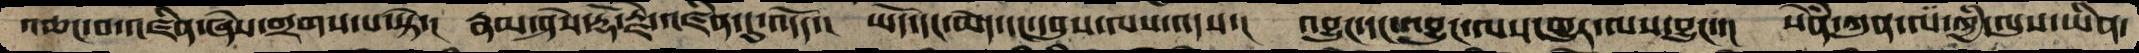འཆང་བ་འཛིན་ཞེས་གྲགས་པ་སྟེ་།  རྣམ་ཤེས་རྡོ་རྗེ་འཛིན་དུ་འདོད་།  ཡོད་དང་མེད་དང་དབུས་ལས་འདས་།  འབྱུང་དང་འབྱུང་ལས་གྱུར་ལས་བྱུང་་།  སེནཾ་ཀུན་ལ་ཀྱི་ལུས་ཡིན་
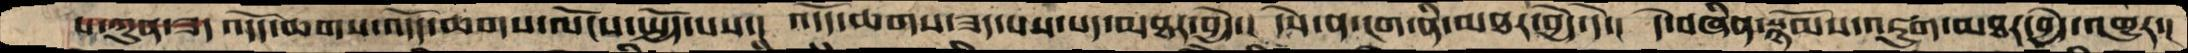པ་ཀུན་ཟད འདོད་ཆགས་འདོད་ཆགས་ལོངས་སྤྱོད་པས་།  འདོད་ཆགས་ཟད་པས་པད་མཐར་བྱེད་།  དེས་ན་ངག་ནི་མཐར་བྱེད་དེ་།  དེ་བཞིན་སྙོམས་འཇུག་མཐར་བྱེད་འགྱུར་།
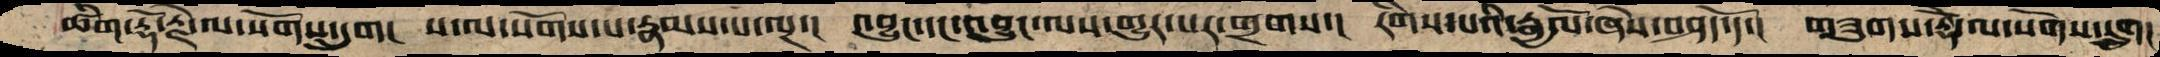ཚིག་རྡོ་རྗེ་ལ་སོགས་དྲུག།  ས་ལ་སོགས་པ་རྣམས་པ་ལྔ་།  འབྱུང་དང་འབྱུང་ལས་གྱུར་པར་གྲགས་།  རིགས་པའི་རྒྱལོ་ཞེས་བཤད་དོ་།  གཟུགས་རྡོེ་ལ་སོགས་དྲུག།
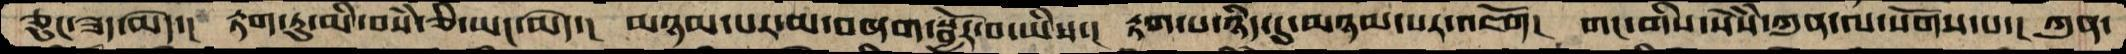ཅུང་ཟད་མེད་།  རྟག་ཏུ་མི་བསཾ་ཅི་ཡང་མེད་།  མཉམ་པར་མ་བཞག་སྦྱོར་བ་ཡིས་།  རྟག་པ་ཉིད་དུ་མཉམ་པར་འཇོག།  གང་གིས་སེསཾ་ཀུན་ལ་སོགས་པ་། ཀུན་
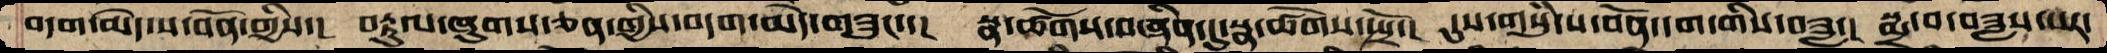བདག་མེད་ས་བོན་གྱིས་།  བརྟུལ་ཞུགས་ཅན་གྱིས་བདག་མེད་གཟུང་་།  སྣ་ཚེགས་བཞིན་དུ་སྣ་ཚོགས་སྤྲོ་།  དུས་གསུཾ་ས་བོན་དག་གིས་བཟླ་།  སྨྲ་བ་བཟླས་པར་
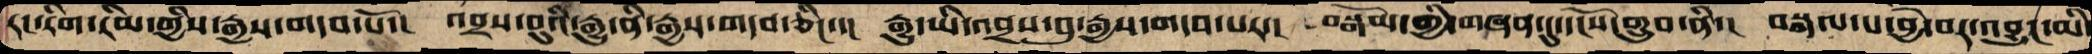རང་རིག་རིམ་གྱིས་རྒྱས་གདབ་པོ་།  འབྲས་བུའི་རྒྱུ་ནི་རྒྱས་གདབ་ཅིང་་།  རྒྱུ་ཡི་འབྲས་བུ་རྒྱས་གདབ་པར་།  བསྒོམ་གྱི་གཞན་དུ་དངོས་གྲུབ་ནི་།  བསྐལ་པ་བྱེ་བར་འབྱུང་མི་
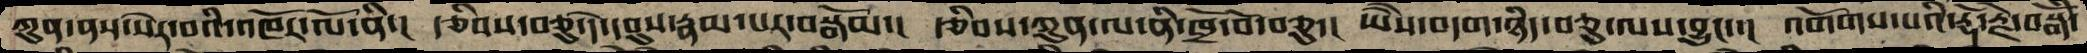ཀུན་ནས་སེར་བའི་འཁོར་ལོ་ནི་།  རྩིབས་བཅུ་དེ་དབུས་རྣམ་པར་བསྒོམ་།  རྩིབས་ཀུན་ལ་ནི་ཁྲོ་བོ་བཅུ་།  ཡཻས་བདག་ཉིད་བཅུ་ལས་བྱུང་་།  འགོགས་པའི་རྡོ་རྗེ་བསྒོཾ་
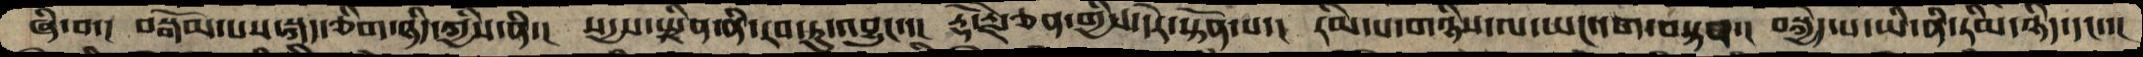ཞི་བ་།  བསྒོམ་པས་སྐད་ཅིག་ཉིད་ཀྱིས་ནི་།  སདྱས་སྤྲིན་ནི་རབ་ཏུ་འབྱུང་་།  རྡོ་རྗེ་ཅན་གྱིས་དེར་སྟོན་པ་།  རིམ་པ་གཉིས་ལ་ཡང་དག་བསྟན་།  བསྐྱེད་པ་ཡི་ནི་རིམ་ཉིད་དང་་།
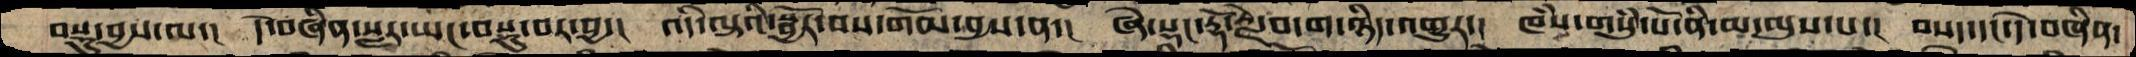བསྡུ་བྱས་ལ་།  དེ་བཞིན་སླར་ཡང་བསྡུ་བར་བྱ་།  འདི་ལྟའི་སྦྱོར་བས་གོམ་བྱས་ན་།  ཤེ་སྡང་རྡོ་རྗེ་བདག་ཉིད་འགྱུར་།  ཁཾས་གསུཾ་པོ་ནི་མ་ལུས་པ་།  བསད་དང་དེ་བཞིན་
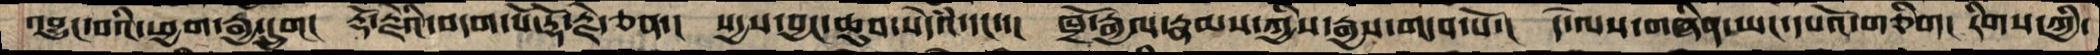འབྱུང་བའི་ཕྱག་རྒྱ་དྲུག།  རྡོ་རྗེའི་བདག་པོ་རྡོ་རྗེ་ཅན་།  སདྱས་བྱང་ཆུབ་སེདཾའ་དང་་།  ཁྲོ་རྒྱལ་རྣམས་ཀྱིས་རྒྱས་གདབ་པོ་།  དེ་ལས་གཞིན་ཡང་དཔའོ་གཅིག།  རིགས་ཀྱི་
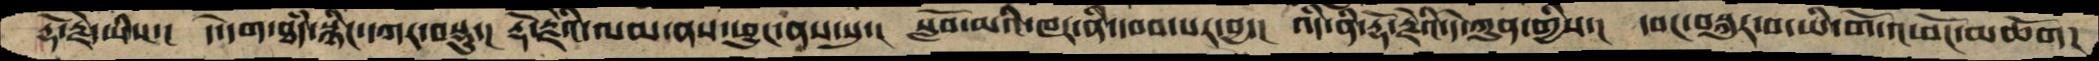རྡོ་རྗེ་ཡིས་།  དེ་དག་ཐཾད་སྙིང་དཀར་བསྡུ་། རྡོ་རྗེའི་ལམ་ནས་ཕྱུང་ནས་སུ་།  སློབ་མའི་ཁར་ནི་དབབ་པར་བྱ་།  འདི་ནི་རྡོ་རྗེའི་དེ་ཀུན་གྱིས་།  དབང་བསྐུར་བ་ཡི་གོ་འཕོང་མཆོག།
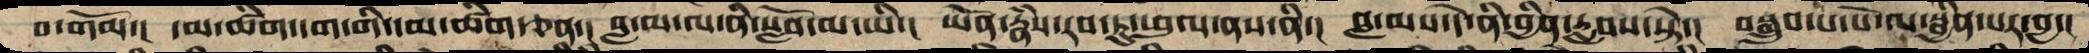བ་གོམ་།  དམ་ཚིག་དག་གི་དམ་ཚིག་ཅན་། བླ་མ་ལ་ནི་སློབ་མ་ཡི་།  ཡོན་རྣཾས་རབ་ཏུ་ཕུལ་ནས་ནི་།  བླ་མས་དེ་ནི་བྱིན་རླབས་སྟེ་།  བསྒྲུབ་པ་པོ་ལ་སྦྱིན་པར་བྱ་།
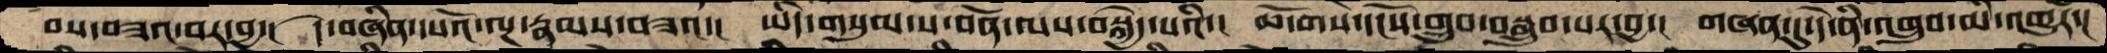བས་བཟའ་བར་བྱ་།  དེ་བཞིན་དཔའོ་ལྔ་རྣམས་བཟའ་།   ཡིད་གསུམ་ས་བོན་ལས་བསྐྱེད་པའི་།  ཆོ་གས་དངོས་གྲུབ་བསྒྲུབ་པར་བྱ་།  གཞན་དུ་དེ་ནི་འགྲུབ་མི་འགྱུར་།
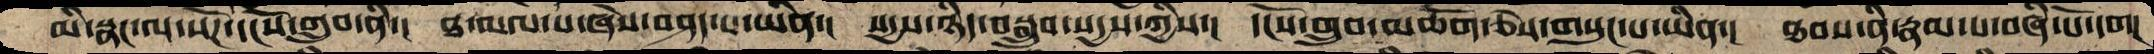མི་སྣང་ལ་སོཌ་དངོས་གྲུབ་ནི་།  ཐ་མལ་པ་ཞེས་བཤད་པ་ཡིན་།  སདྱས་ཉིད་བསྒྲུབ་སདྱས་ཀྱིས་།  དངོས་གྲུབ་མཆོག་ཅེས་གསུང་པ་ཡིན་།  ཐབས་ནི་རྣམ་པ་བཞི་པོ་དག།
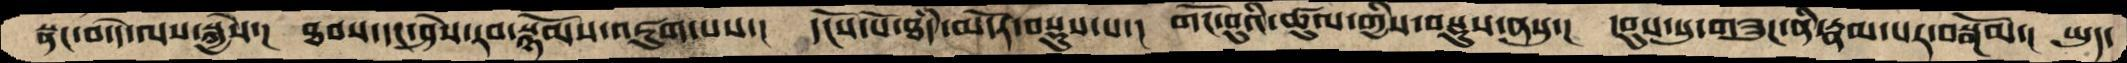སྣང་བ་དེ་ལས་སྐྱེས་།  ཐབས་དང་ཤེས་རབ་སྙོམས་འཇུག་པས་།  དངོས་པོ་ཐཾད་མདོར་བསྡུས་པ་།  གོང་བུའི་ཚུལ་གྱིས་བསྡུས་ནསུ་།  དབུས་སུ་གཟུཌ་ནི་རྣམ་པར་བསྒོམ་།  ཡུད་
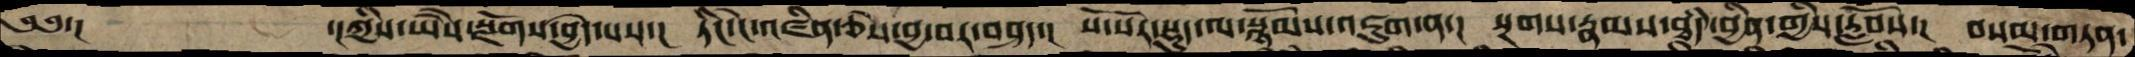༄༅་།     ་།ཀྱིས་ཡཻས་སྫོགས་བྱེད་པས་།  ཏིང་ངེ་འཛིན་ཅེས་བྱ་བར་བཤད་།  སོ་སོར་སྡུད་ལ་སྙོམས་འཇུག་ན་།  སྔགས་རྣམས་ཐཾད་བྱིན་གྱིས་རློབས་།  བསམ་གཏན་
